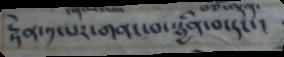རྟེན་༡་པར་གནང་བ་སྦྱིན་བ་དང་།
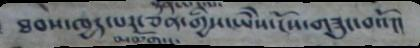ཐབས་ཁྱད་པར་ཅན་གྱིས་ཡེེས་ངོས་གཟུང་བའོ།།
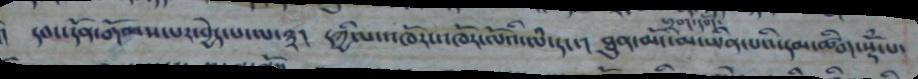དབང་དོན་གོམས་པར་བྱེད་པ་ལ་༣།   དཀྱིལ་འཁོར་འཁོར་ལོའི་ལཾ་དང་།   ཐུན་མོང་མ་ཡིན་པའི་དམ་ཚིག་སྡོཾ་པ་
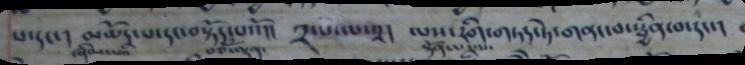པ་དང་།   མཆོད་པ་དང་བསྟོད་པའོ།།     ༢་པ་ལ་༢།    ལས་རིག་གཏད་ཏེ་གནང་བ་སྦྱིན་པདང་
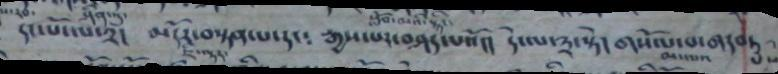དང་པོ་ལ་༢།   མདོར་བསྟན་པ་དང་     རྒྱས་པར་བཤད་པའོ།།    དེ་ལ་༣་སྟེ།    གསོལ་བ་གདབ་ཏུ་
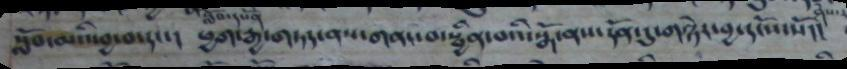སློབ་མའི་བྱ་བ་དང་།     ཕྱག་རྒྱ་གཏན་ནས་གནང་བ་སྦྱིན་པའི་སྒོ་ནས་དོན་དུ་གཉེར་བྱ་དངོས་སོ།།
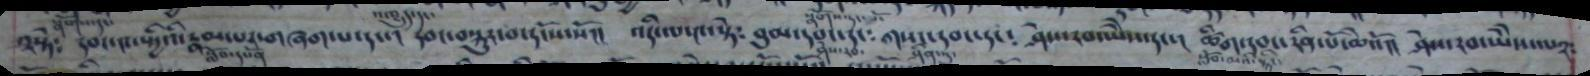འསྟེ༴   དབང་༤་ཡྱིའི་རྣམ་པར་གཞག་པ་དང་། དབང་བསྐུར་བ་དངོས་སོ།།   འདི་ལ༤་སྟེ༴    བུམ་དབང་དང༴   གསང་དབང་དང༴  ཤེས་རབ་ཡེེས་དང་།  ཚིག་དབང་རིན་པོ་ཆེའོ།།  ཤེས་རབ་ཡེེས་ལ༢༴
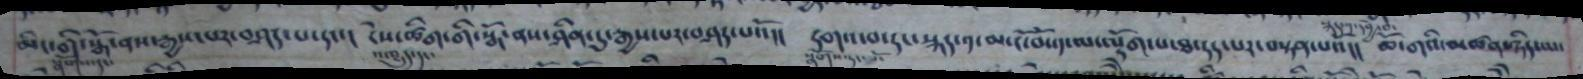མིང་གི་སྒོ་ནས་རྒྱས་པར་བཤད་པ་དང་།   ངེས་ཚིག་གི་སྒོ་ནས་ཤིན་དུ་རྒྱས་པར་བཤད་པའོ།།   དགའ་བ་དང་སྐད་༡་མ་ངོ་བོ་༡་ལ་ལྡོག་པ་ཐ་དད་པར་བསྟན་པའོ།།  ཆོ་གའི་མཚན་ཉིད་ལ་
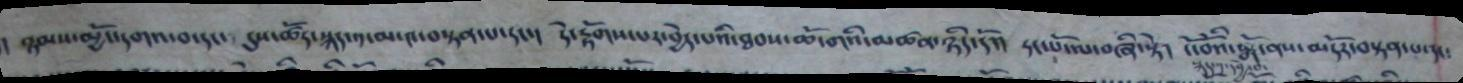མཉམས་མྱོང་དགའ་བ་དང་   དུས་ཚོད་སྐད་༡་མ་༤་བསྟན་པ་དང་།   དེ་རྟོགས་པར་བྱེད་པའི་ཐབས་ཆོ་གའི་མཚན་ཉིད་དོ།།   དང་པོ་ལ་བཞི་སྟེ།   ངོ་བོའི་སྒོ་ནས་མདོར་བསྟན་པ་དང༴
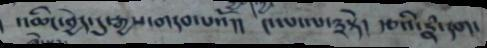འཆིང་བྱེད་དུ་རྒྱས་གདབ་པའོ།། ༤་པ་ལ་༣སྟེ། རྩའི་རྣཾ་དག་
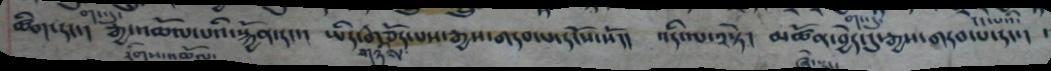ཚིག་དང་།   རྒྱ་འཆོལ་བའི་སྐྱོན་དང་།   ཡིད་གཉིས་གཅོད་པས་རྒྱས་གདབ་པ་དངོས་སོ།།    འདིལ་༢སྟེ།   མཚོན་བྱེད་དུ་རྒྱས་གདབ་པ་དང་།    །
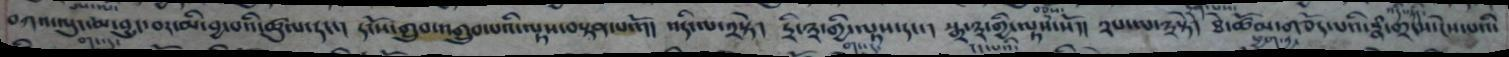བཀའ་ལུང་མ་བྱུང་བར་མི་བྱ་པའི་ཚུལ་དང་།   དངོས་གྲུབ་འགྲུབ་པའི་ལྟས་བསྟན་པའོ།།    འདི་ལ་༢སྟེ།   ཏྲི་༣་གྱི་ལྟས་དང་།   སྒྲ་༣་གྱི་ལྟས་སོ།།   ༢པ་ལ་༣སྟེ།    ཐེ་ཚོམ་གཅོད་པའི་རྣཾ་གྲངས་ངེས་པའི་
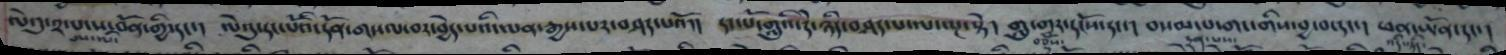ལེའུ་༢་པ་ས་བོན་གྱི་དང་།   ལེའུ་དང་པོའི་དོན་གང་ལ་བར་བྱེད་པའི་ལན་རྒྱས་པར་བཤད་པའོ།།   དང་པོ་གླུའི་དེ་ཉིད་བཤད་པ་ལ་ལྔ་སྟེ།   གླུ་གར་དངོས་དང་།   བསམ་པ་གང་གིས་བྱ་བ་དང་།   ཕན་ཡོན་དང་།
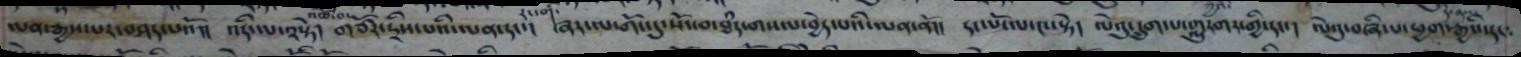ལན་རྒྱས་པར་བཤད་པའོ།།  འདི་ལ་༢སྟེ།  གཙོར་དྲིས་པའི་ལན་དང་།  ཞར་ལ་གོང་དུ་སོང་བ་ཐཾད་གསལ་བྱེད་པའི་ལན་ནོ།།  དང་པོ་ལ་༤་སྟེ།  ལེའུ་དྲུག་པ་གླུ་གར་གྱི་དང་།  ལེའུ་བཞི་པ་ཕྱག་རྒྱས་དང༴
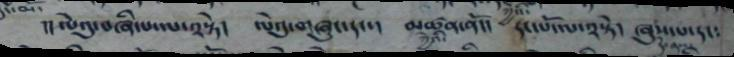།། ལེའུ་བཞི་པ་ལ་༢་སྟེ།  ལེའུ་གཞུང་དང་།  ཀྱེའི་མཚན་ནོ།།  དང་པོ་ལ་༢་སྟེ།  དེ་ནས་ཞུས་པ་དང༴
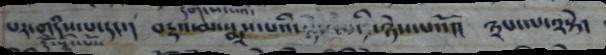པར་གདིས་པ་དང་།   བརྡའ་མ་སྨྲས་པའི་ཉེས་པའི་ཉེས་པའོ།།    ༣པ་ལ་༢་སྟེ།
